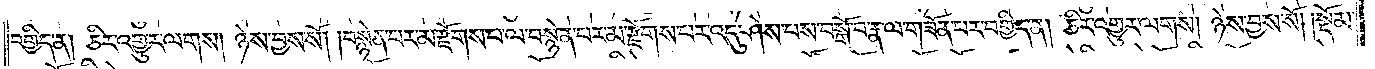བགྱིད་ན། ཅིར་འགྱུར་ལགས། ཉེས་བྱས་སོ། །བསྙེན་པར་མ་རྫོགས་པ་ལ་བསྙེན་པར་མ་རྫོགས་པར་འདུ་ཤེས་པས་བསྒོ་བ་རྣ་ལ་གཟོན་པར་བགྱིད་ན། ཅིར་འགྱུར་ལགས། ཉེས་བྱས་སོ། །སྡོམ་
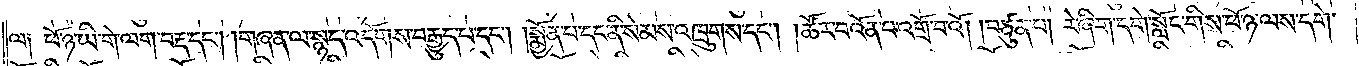ལ༑ ཕོ་ཉ་ཡི་གེ་ལག་བརྡ་དང༌། །གཞན་ལ་སྙད་འདོགས་བརྒྱུད་པ་དང༌། །སྨྱོན་པ་དང་ནི་སེམས་འཁྲུགས་དང༌། །ཚོར་བ་འོན་པ་འགྲོ་བའོ། །བཙུན་པ། རེ་ཞིག་དགེ་སློང་གིས་ཕོ་ཉ་ལས་དགེ་
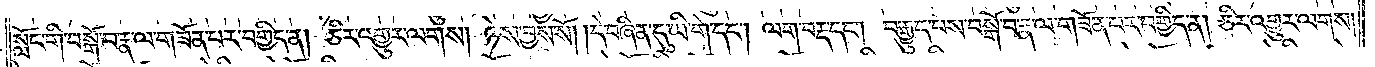སློང་གི་བསྒོ་བ་རྣ་ལ་གཟོན་པར་བགྱིད་ན། ཅིར་འགྱུར་ལགས། ཉེས་བྱས་སོ། །དེ་བཞིན་དུ་ཡི་གེ་དང༌། ལག་བརྡ་དང༌། བརྒྱུད་པས་བསྒོ་བ་རྣ་ལ་གཟོན་པར་བགྱིད་ན། ཅིར་འགྱུར་ལགས།
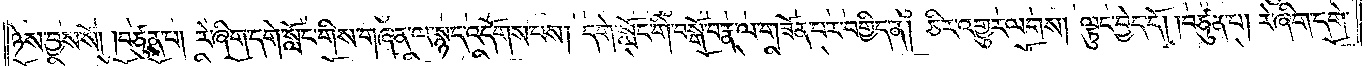ཉེས་བྱས་སོ། །བཙུན་པ། རེ་ཞིག་དགེ་སློང་གིས་གཞན་ལ་སྙད་འདོགས་པས། དགེ་སློང་གི་བསྒོ་བ་རྣ་ལ་གཟོན་པར་བགྱིད་ན། ཅིར་འགྱུར་ལགས། ལྟུང་བྱེད་དོ། །བཙུན་པ། རེ་ཞིག་དགེ་
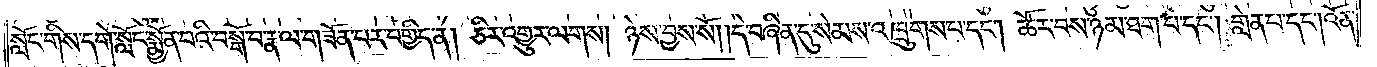སློང་གིས་དགེ་སློང་སྨྱོན་པའི་བསྒོ་བ་རྣ་ལ་གཟོན་པར་བགྱིད་ན། ཅིར་འགྱུར་ལགས། ཉེས་བྱས་སོ། །དེ་བཞིན་དུ་སེམས་འཁྲུགས་པ་དང༌། ཚོར་བས་ཉམ་ཐག་པ་དང༌། གླེན་པ་དང༌། འོན་
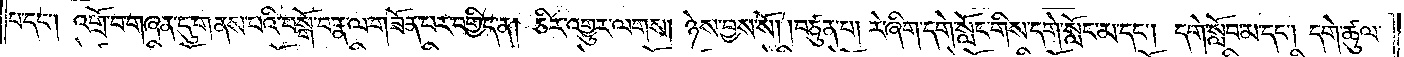པ་དང༌། འགྲོ་བ་གཞན་དུ་གནས་པའི་བསྒོ་བ་རྣ་ལ་གཟོན་པར་བགྱིད་ན། ཅིར་འགྱུར་ལགས། ཉེས་བྱས་སོ། །བཙུན་པ། རེ་ཞིག་དགེ་སློང་གིས་དགེ་སློང་མ་དང༌། དགེ་སློབ་མ་དང༌། དགེ་ཚུལ་
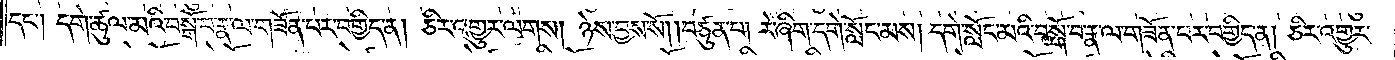དང༌། དགེ་ཚུལ་མའི་བསྒོ་བ་རྣ་ལ་གཟོན་པར་བགྱིད་ན། ཅིར་འགྱུར་ལགས། ཉེས་བྱས་སོ། །བཙུན་པ། རེ་ཞིག་དགེ་སློང་མས། དགེ་སློང་མའི་བསྒོ་བ་རྣ་ལ་གཟོན་པར་བགྱིད་ན། ཅིར་འགྱུར་
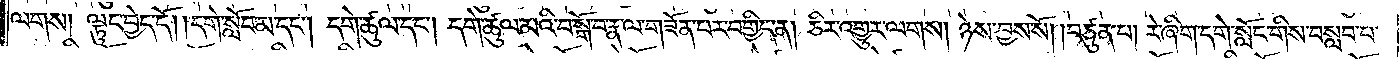ལགས། ལྟུང་བྱེད་དོ། །དགེ་སློབ་མ་དང༌། དགེ་ཚུལ་དང༌། དགེ་ཚུལ་མའི་བསྒོ་བ་རྣལ་གཟོན་པར་བགྱིད་ན། ཅིར་འགྱུར་ལགས། ཉེས་བྱས་སོ། །བཙུན་པ། རེ་ཞིག་དགེ་སློང་གིས་བསླབ་པ་
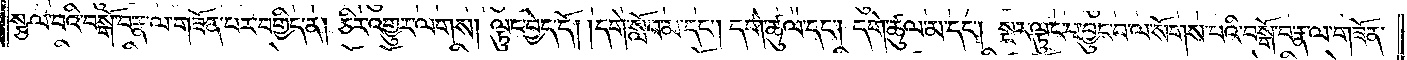སྩལ་བའི་བསྒོ་བ་རྣ་ལ་གཟོན་པར་བགྱིད་ན། ཅིར་འགྱུར་ལགས། ལྟུང་བྱེད་དོ། །དགེ་སློབ་མ་དང༌། དགེ་ཚུལ་དང༌། དགེ་ཚུལ་མ་དང༌། སྔར་ལྟུང་བ་བྱུང་བ་ལ་སོགས་པའི་བསྒོ་བ་རྣ་ལ་གཟོན་
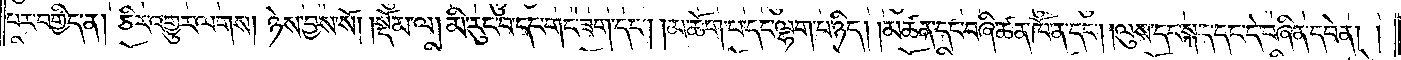པར་བགྱིད་ན། ཅིར་འགྱུར་ལགས། ཉེས་བྱས་སོ།    །སྡོམ་ལ། མི་རུང་བ་དང་གང་ཟག་དང༌། །མཆོག་པ་དང་ལྷག་པ་ཉིད། །མཚན་དང་བཞི་ཚན་ཁོ་ན་དང༌། །ལུས་དང་སྐད་དང་དེ་བཞིན་དབེན། །
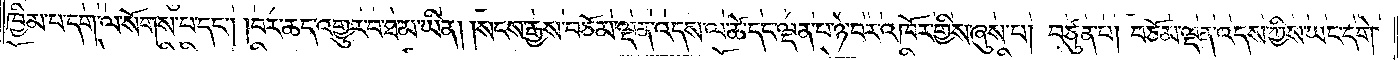ཁྱིམ་པ་བདག་ལ་སོགས་པ་དང༌། །བར་ཆད་འགྱུར་བ་ཐ་མ་ཡིན། །སངས་རྒྱས་བཅོམ་ལྡན་འདས་ལ་ཚེ་དང་ལྡན་པ་ཉེ་བར་འཁོར་གྱིས་ཞུས་པ། བཙུན་པ། བཅོམ་ལྡན་འདས་ཀྱིས་ཡང་དགེ་
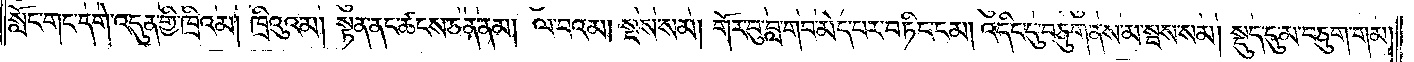སློང་གང་དགེ་འདུན་གྱི་ཁྲིའམ། ཁྲིའུའམ། སྟན་ནང་ཚངས་ཅན་ནམ། ལ་བའམ། སྔས་སམ། གོར་བུ་བླ་གབ་མེད་པར་བཏིང་ངམ། འདིང་དུ་བཅུག་ནས་མ་སྦས་སམ། སྡུད་དུ་མ་བཅུག་གམ།
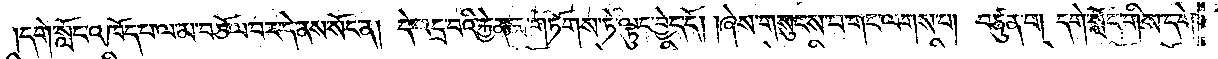དགེ་སློང་འཁོད་པ་ལ་མ་བཅོལ་བར་དེ་ནས་སོང་ན། དེ་འདྲ་བའི་རྐྱེན་མ་གཏོགས་ཏེ་ལྟུང་བྱེད་དོ། །ཞེས་གསུངས་པ་གང་ལགས་པ། བཙུན་པ། དགེ་སློང་གིས་དགེ་
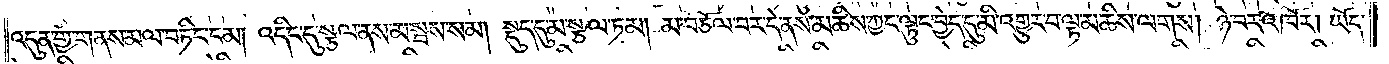འདུན་གྱི་གནས་མལ་བཏིང་ངམ། འདིང་དུ་སྩལ་ནས་མ་སྦས་སམ། སྡུད་དུ་མ་སྩལ་ཏམ། མ་བཅོལ་བར་དེ་ནས་མཆིས་ཀྱང་ལྟུང་བྱེད་དུ་མི་འགྱུར་བ་ལྟ་མཆིས་ལགས། ཉེ་བར་འཁོར། ཡོད་
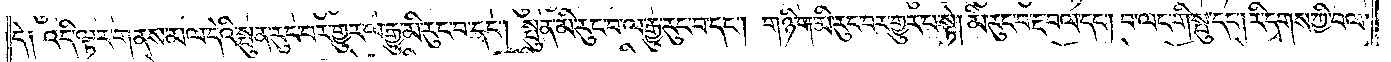དེ༑ འདི་ལྟར་གནས་མལ་དེའི་སྤུན་རུང་བར་གྱུར་ལ་རྒྱུ་མི་རུང་བ་དང༌། སྤུན་མི་རུང་བ་ལ་རྒྱུ་རུང་བ་དང༌། གཉི་ག་མི་རུང་བར་གྱུར་པ་སྟེ། མི་རུང་བ་རྔ་བལ་དང༌། བ་ལང་གི་སྤུ་དང༌། རི་དྭགས་ཀྱི་བལ་
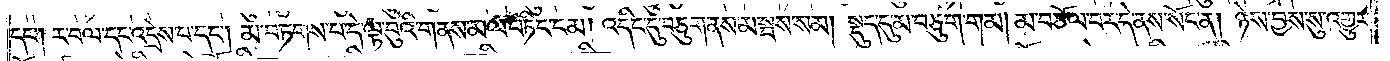དང༌། ར་བལ་དང་འདྲེས་པ་དང༌། མ་བཏགས་པ་དེ་ལྟ་བུའི་གནས་མལ་བཏིང་ངམ། འདིང་དུ་བཅུག་ནས་མ་སྦས་སམ། སྡུད་དུ་མ་བཅུག་གམ། མ་བཅོལ་བར་དེ་ནས་སོང་ན། ཉེས་བྱས་སུ་འགྱུར་
